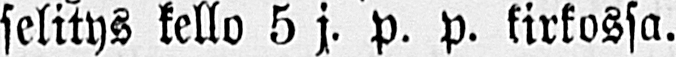selitys kello 5 j. p. p. kirkossa.
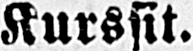Kurssit.
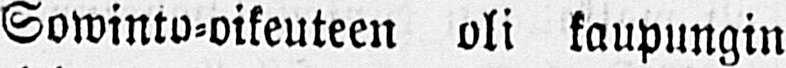Sowinto-oikeuteen oli kaupungin
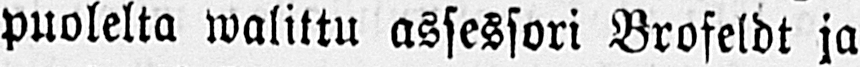puolelta walittu assessori Brofeldt ja
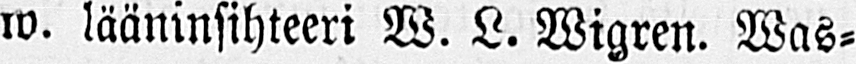w. lääninsihteeri W. L. Wigren. Was-
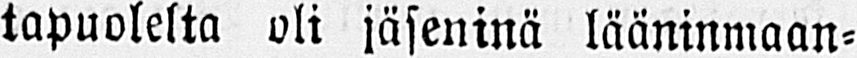tapuolelta oli jäseninä lääninmaan-
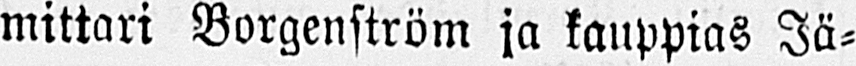mittari Borgenström ja kauppias Jä-
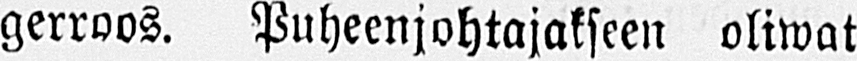gerroos. Puheenjohtajakseen oliwat
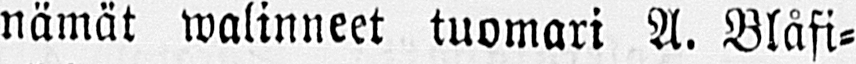nämät walinneet tuomari A. Blåfi-
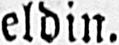eldin.
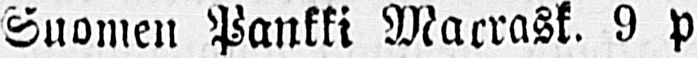Suomen Pankki Marrask. 9 p
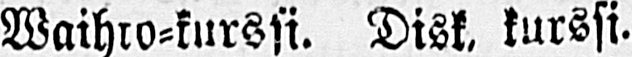Waihto-kurssi. Disk. kurssi.
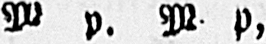M p. M P,
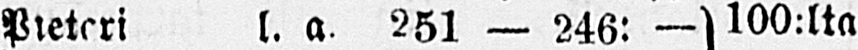Pieteri l. . 251 — 246: —100:lta
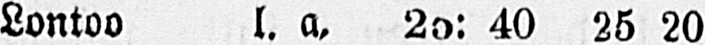Lontoo l. a,25: 40 25 20
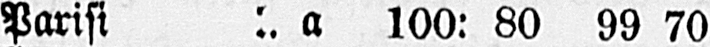Parisi :. a 100: 80 99 70
